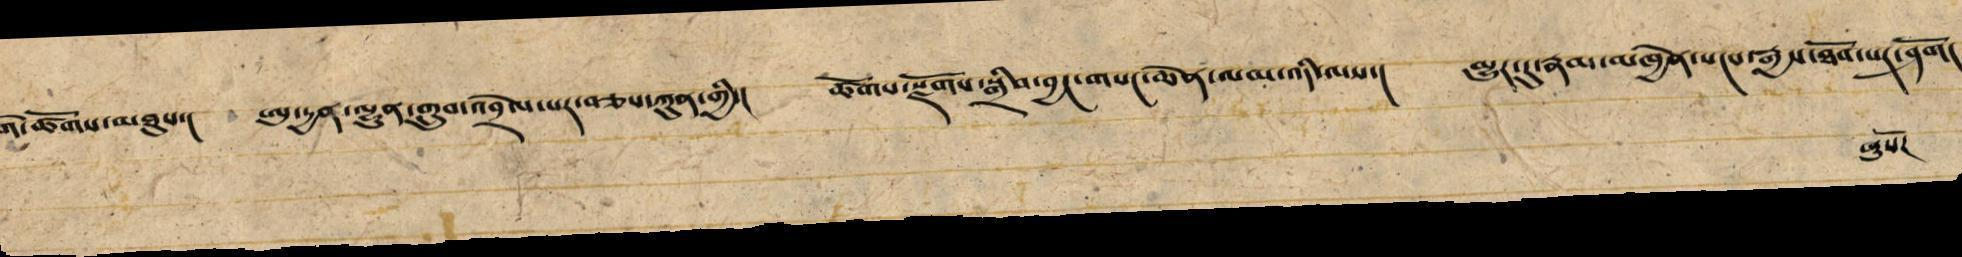དགེ་ཚོགས་མཐུས་། ཨུ་རྒྱན་ལྷུན་གྲུབ་འབྲེལ་པར་བཅས་ཀུན་གྱི་། ཚོགས་རྫོགས་སྒྲིབ་བྱང་གསང་ཆེན་ལམ་འདི་ལས་། མྱུར་དུ་རྣམ་མཁྱེན་སངས་རྒྱས་ཐོབ་པར་ཤོག །
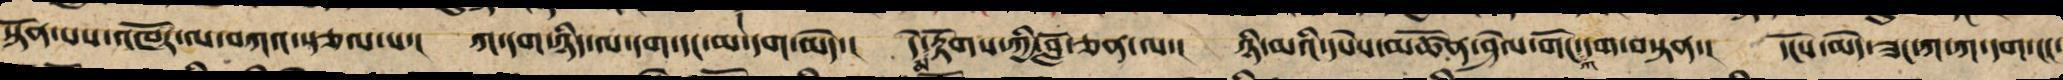སྟོན་པས་འཁོར་ལ་བཀའ་སྩལ་པ་། ཀ་དག་ཉིད་ལ་དག་དང་མ་དག་མེད་། དེ་མ་རྟོགས་ཀྱི་བློ་ཅན་ལ་། ཉི་མའི་དཔེས་མཚོན་ཤེལ་གོང་ཀ་དག་བསྟན་། དངོས་མེད་ཟང་ཀ་ཀ་དག་དང་
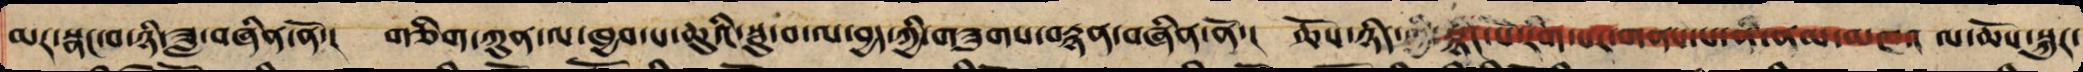མར་སྣང་བ་ཉི་ཟླ་བཞིན་ནོ་། གཅིག་ཀུན་ལ་ཁྱབ་པ་ཆུའི་ལྦུ་བ་ལ་བྱད་ཀྱི་གཟུགས་བརྙན་བཞིན་ནོ་། ཆོས་ཉིད་གྱི་སྙིང་པོ་རིག་པར་གནས་པ་ནི་ནམ་མཁའ ལ་ཆོས་སྐུར་
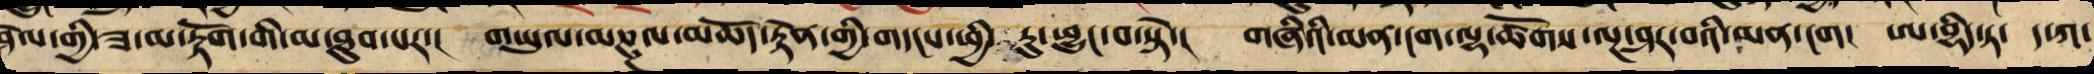ཤེལ་གྱི་ཟ་མ་ཏོག་གིས་མ་ཐུབ་པར་གཡུལ་མཎྜལ་ལས་མཆོད་རྟེན་གྱི་གདངས་ཕྱི་རུ་ཕྱུང་བ་སྟེ། གཞིའི་མན་ངག་ལྷ་ཚོགས་ལྔ་ཤར་བའི་མན་ངག །ཨ་བྷི་ཏ་  ད་ཀ་
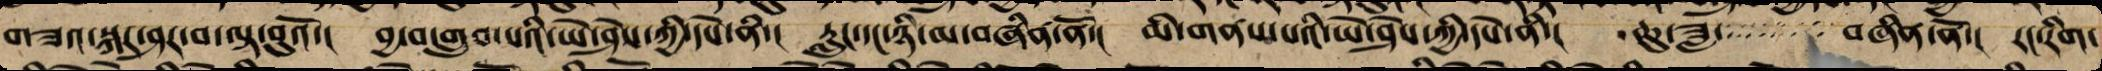གཟའ་སྐར་ཤར་བ་ལྟ་བུའོ་། བྱ་བ་གྲུབ་པའི་ཡེ་ཤེས་ཀྱི་དཔེ་ནི། རླུང་དང་ཉི་མ་བཞིན་ནོ་། མི་གནས་པའི་ཡེ་ཤེས་ཀྱི་དཔེ་ནི་   ཆུ་ཟླ་   བཞིན་ནོ། །རང་རིག་
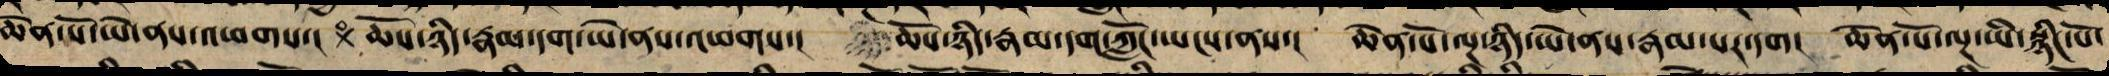ཆེན་པོ་ཡེ་ནས་འཕགས། །ནམ་མཁའ་མེད་པའི་སྔོན་རོལ་ནས། །ཆོས་ཉིད་རྣམ་དག་ཡེ་ནས་འཕགས། །ཆོས་ཉིད་རྣམ་དག་ཀློང་ཡངས་ནས། །ཆེན་པོ་ལྔ་ཉིད་ཡེ་ནས་རྣམ་པར་དག །ཆེན་པོ་ལྔ་ཡི་སྙིང་པོ་
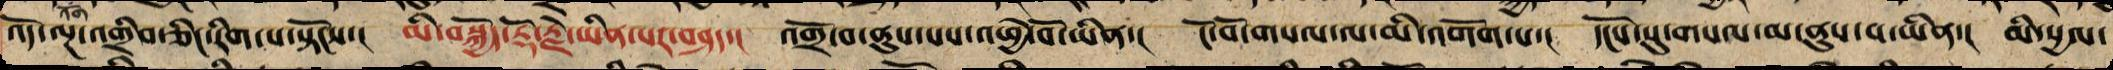འོད་ལྔ་འགྲིབ་ཅིང་རིག་པ་སྟོངས་། མི་བསྐྱོད་རྡོ་རྗེ་ཡིན་པར་བཤད་། འགྲོ་མ་ནུས་པས་འཕྱེ་བོ་ཡིན་། ངོ་བོ་གསལ་ལ་མི་འགོག་པ་། དངོས་སུ་གསལ་མ་ནུས་པ་ཡིན།   མོ་སྱལ་
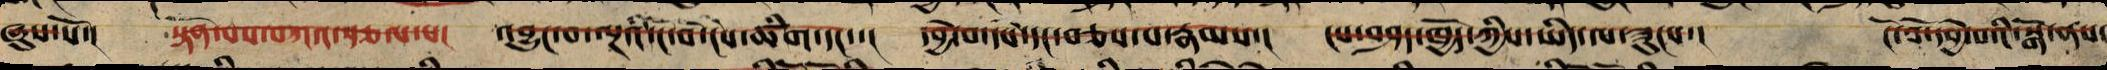ཞུས་སོ་།   སྟོན་པས་བཀའ་རྩལ་པ་   འབྱུང་བ་ལྔའི་ངོ་བོ་ངེས་ཚིག་དང་།   དབྱེ་བ་དཔེ་དང་བཅས་པ་རྣམས་།   ངས་བཤད་ཁྱོད་ཀྱིས་ཡིད་ལ་ཟུངས་།   ངོ་བོ་དབྱེ་བའི་སྒོ་ནས་
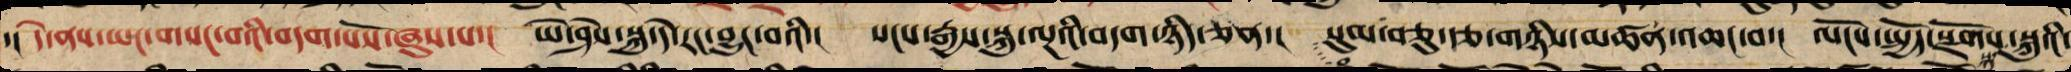་།   དེ་ནས་ཡང་གསང་བའི་བདག་པོས་ཞུས་པ་།   ཡེ་ཤེས་སྐུ་དེ་རང་བྱུང་བའི་།   སངས་རྒྱས་སྐུ་ལྔའི་བདག་ཉིད་ཅན་།   སུམ་བཅུ་རྩ་གཉིས་མཚན་འཆང་བ་།   ལོངས་སྤྱོད་རྫོགས་སྐུ་སྐུའི་
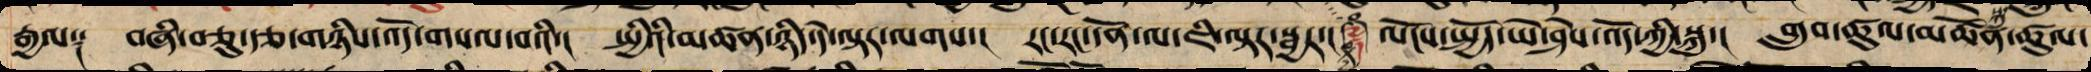རྒྱལ་།    བཞི་བཅུ་རྩ་གཉིས་འོད་གསལ་བའི་།   སྤྱིའི་མཚན་ཉིད་དེ་ལྟར་ལགས་།   རང་རང་དོན་ལ་ཇི་ལྟར་སྦྱར་།  ༈ ལོངས་སྤྱོད་ཡེ་ཤེས་འོད་ཀྱི་སྐུ་།   གྲུབ་ཚུལ་མཚོན་ཚུལ་
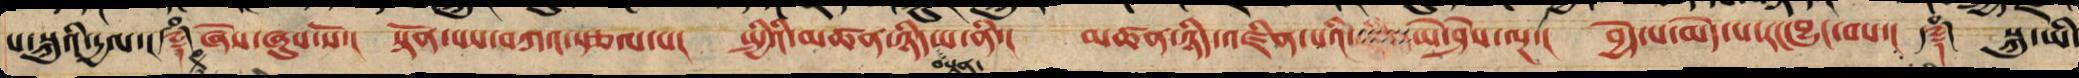པ་སྐུ་ཡི་རྒྱལ་།   ༈  ཞེས་ཞུས་སོ་།  སྟོན་པས་བཀའ་སྩལ་པ།  སྤྱིའི་མཚན་ཉིད་བསྟན་ཡ་ནི་།  མཚན་ཉིད་འཛིན་པའི་    ཡེ་ཤེས་ལྔ་།  བྱེད་པ་མོད་པ་རང་བྱུང་བས་།  ༈  སྐུ་ཡི་
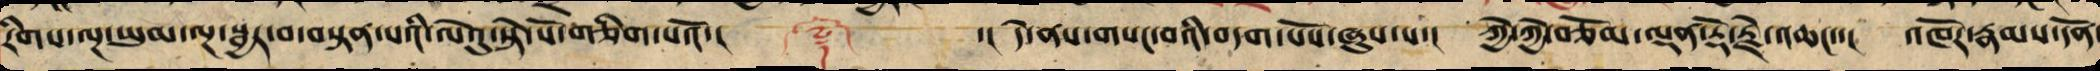རིགས་ལྔ་ཡུམ་ལྔ་སྦྱར་བ་བསྟན་པའི་ལེའུ་སྟེ་སོགཅིག་པའོ་།།   ༈   ་།  དེ་ནས་གསང་བའི་བདག་པོས་ཞུས་པ་།   ཀྱེ་ཀྱེ་བཅོམ་ལྡན་རྡོ་རྗེ་འཆང་།   འཁོར་རྣམས་དོན་
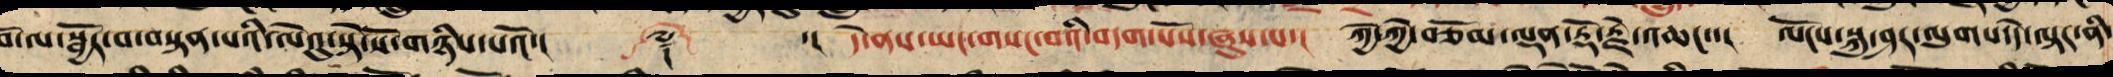བོ་ལ་སྦྱོར་བ་བསྟན་པའི་ལེའུ་སྟེ་སོ་གཉིས་པའོ་།།    ༈ ་།    དེ་ནས་ཡང་གསང་བའི་བདག་པོས་ཞུས་པ་།    ཀྱེ་ཀྱེ་བཅོམ་ལྡན་རྡོ་རྗེ་འཆང་་།    ལོངས་སྐུ་ཤར་ལུགས་དེ་ལྟར་ནི་
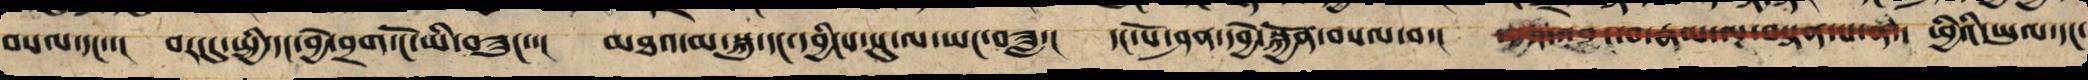བསལ་དང་། །བར་དུ་སྤྱི་དང་བྱེ་བྲག་ངོ་མི་་བཟུང་།  མཐའ་མ་སྐུ་དང་དབྱིངས་སུ་ལ་ཡང་བཟླ་།    དང་པོ་ཤན་དབྱེ་སྐྱོན་བསལ་བ་།   སདྱས་འབྱུང་བ་རྣམ་ལྔ་བསྟན་པ་ནི་  ཕྱི་ཡི་ཡུལ་དང་
